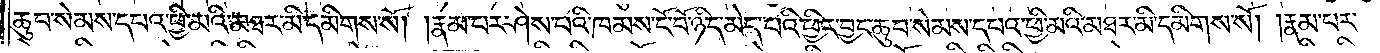ཆུབ་སེམས་དཔའི་ཕྱི་མའི་མཐར་མི་དམིགས་སོ། །རྣམ་པར་ཤེས་པའི་ཁམས་ངོ་བོ་ཉིད་མེད་པའི་ཕྱིར་བྱང་ཆུབ་སེམས་དཔའ་ཕྱི་མའི་མཐར་མི་དམིགས་སོ། །རྣམ་པར་
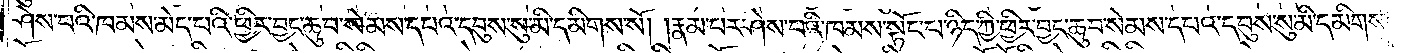ཤེས་པའི་ཁམས་མེད་པའི་ཕྱིར་བྱང་ཆུབ་སེམས་དཔའ་དབུས་སུ་མི་དམིགས་སོ། །རྣམ་པར་ཤེས་པའི་ཁམས་སྟོང་པ་ཉིད་ཀྱི་ཕྱིར་བྱང་ཆུབ་སེམས་དཔའ་དབུས་སུ་མི་དམིགས་
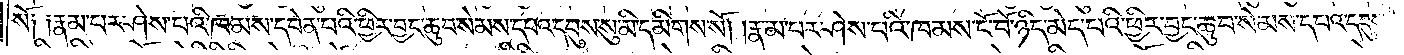སོ༑ ༑རྣམ་པར་ཤེས་པའི་ཁམས་དབེན་པའི་ཕྱིར་བྱང་ཆུབ་སེམས་དཔའ་དབུས་སུ་མི་དམིགས་སོ། །རྣམ་པར་ཤེས་པའི་ཁམས་ངོ་བོ་ཉིད་མེད་པའི་ཕྱིར་བྱང་ཆུབ་སེམས་དཔའ་དབུས་
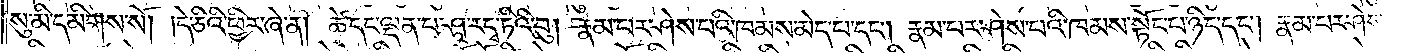སུ་མི་དམིགས་སོ། །དེ་ཅིའི་ཕྱིར་ཞེ་ན། ཚེ་དང་ལྡན་པ་ཤཱ་རདྭ་ཏིའི་བུ། རྣམ་པར་ཤེས་པའི་ཁམས་མེད་པ་དང༌། རྣམ་པར་ཤེས་པའི་ཁམས་སྟོང་པ་ཉིད་དང༌། རྣམ་པར་ཤེས་
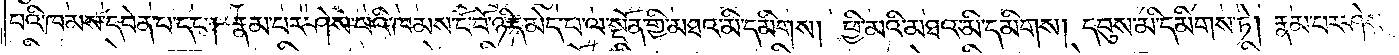པའི་ཁམས་དབེན་པ་དང༌། རྣམ་པར་ཤེས་པའི་ཁམས་ངོ་བོ་ཉིད་མེད་པ་ལ་སྔོན་གྱི་མཐའ་མི་དམིགས། ཕྱི་མའི་མཐའ་མི་དམིགས། དབུས་མི་དམིགས་ཏེ། རྣམ་པར་ཤེས་
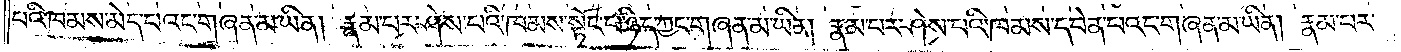པའི་ཁམས་མེད་པའང་གཞན་མ་ཡིན། རྣམ་པར་ཤེས་པའི་ཁམས་སྟོང་པ་ཉིད་ཀྱང་གཞན་མ་ཡིན། རྣམ་པར་ཤེས་པའི་ཁམས་དབེན་པའང་གཞན་མ་ཡིན། རྣམ་པར་
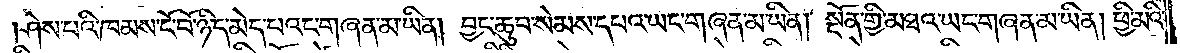ཤེས་པའི་ཁམས་ངོ་བོ་ཉིད་མེད་པའང་གཞན་མ་ཡིན། བྱང་ཆུབ་སེམས་དཔའ་ཡང་གཞན་མ་ཡིན། སྔོན་གྱི་མཐའ་ཡང་གཞན་མ་ཡིན། ཕྱི་མའི་
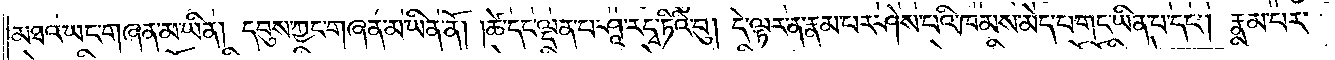མཐའ་ཡང་གཞན་མ་ཡིན། དབུས་ཀྱང་གཞན་མ་ཡིན་ནོ། །ཚེ་དང་ལྡན་པ་ཤཱ་རདྭ་ཏིའི་བུ། དེ་ལྟར་ན་རྣམ་པར་ཤེས་པའི་ཁམས་མེད་པ་གང་ཡིན་པ་དང༌། རྣམ་པར་
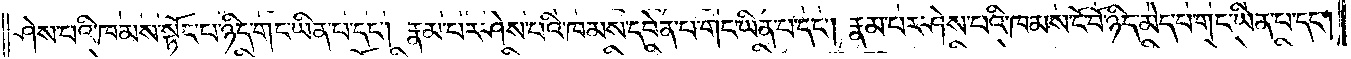ཤེས་པའི་ཁམས་སྟོང་པ་ཉིད་གང་ཡིན་པ་དང༌། རྣམ་པར་ཤེས་པའི་ཁམས་དཔེན་པ་གང་ཡིན་པ་དང༌། རྣམ་པར་ཤེས་པའི་ཁམས་ངོ་བོ་ཉིད་མེད་པ་གང་ཡིན་པ་དང༌།
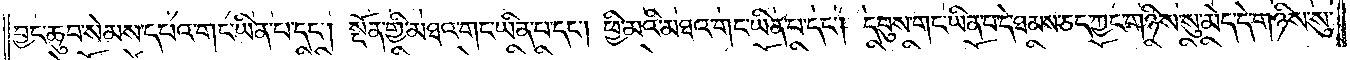བྱང་ཆུབ་སེམས་དཔའ་གང་ཡིན་པ་དང༌། སྔོན་གྱི་མཐའ་གང་ཡིན་པ་དང༌། ཕྱི་མའི་མཐའ་གང་ཡིན་པ་དང༌། དབུས་གང་ཡིན་པ་དེ་ཐམས་ཅད་ཀྱང་གཉིས་སུ་མེད་དེ་གཉིས་སུ་
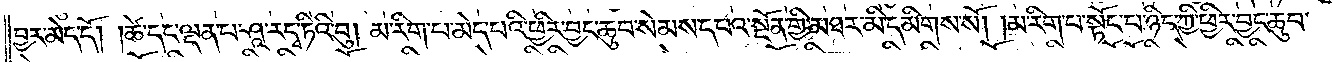བྱར་མེད་དོ། །ཚེ་དང་ལྡན་པ་ཤཱ་རདྭ་ཏིའི་བུ། མ་རིག་པ་མེད་པའི་ཕྱིར་བྱང་ཆུབ་སེམས་དཔའ་སྔོན་གྱི་མཐར་མི་དམིགས་སོ། །མ་རིག་པ་སྟོང་པ་ཉིད་ཀྱི་ཕྱིར་བྱང་ཆུབ་
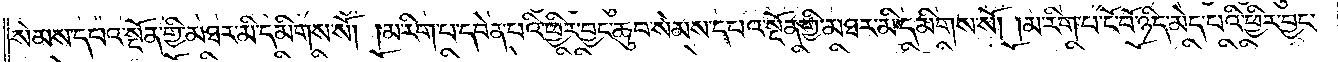སེམས་དཔའ་སྔོན་གྱི་མཐར་མི་དམིགས་སོ། །མ་རིག་པ་དབེན་པའི་ཕྱིར་བྱང་ཆུབ་སེམས་དཔའ་སྔོན་གྱི་མཐར་མི་དམིགས་སོ། །མ་རིག་པ་ངོ་བོ་ཉིད་མེད་པའི་ཕྱིར་བྱང་
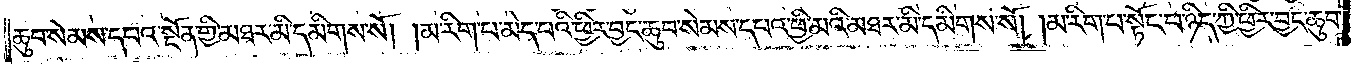ཆུབ་སེམས་དཔའ་སྔོན་གྱི་མཐར་མི་དམིགས་སོ། །མ་རིག་པ་མེད་པའི་ཕྱིར་བྱང་ཆུབ་སེམས་དཔའ་ཕྱི་མའི་མཐར་མི་དམིགས་སོ། །མ་རིག་པ་སྟོང་པ་ཉིད་ཀྱི་ཕྱིར་བྱང་ཆུབ་
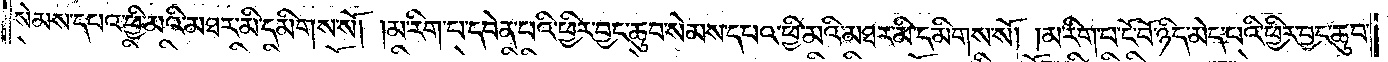སེམས་དཔའ་ཕྱི་མའི་མཐར་མི་དམིགས་སོ། །མ་རིག་པ་དབེན་པའི་ཕྱིར་བྱང་ཆུབ་སེམས་དཔའ་ཕྱི་མའི་མཐར་མི་དམིགས་སོ། །མ་རིག་པ་ངོ་བོ་ཉིད་མེད་པའི་ཕྱིར་བྱང་ཆུབ་
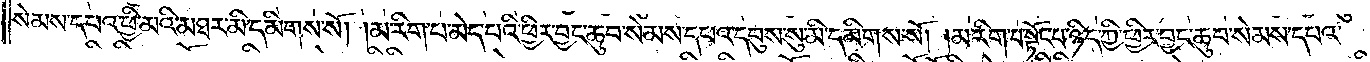སེམས་དཔའ་ཕྱི་མའི་མཐར་མི་དམིགས་སོ། །མ་རིག་པ་མེད་པའི་ཕྱིར་བྱང་ཆུབ་སེམས་དཔའ་དབུས་སུ་མི་དམིགས་སོ། །མ་རིག་པ་སྟོང་པ་ཉིད་ཀྱི་ཕྱིར་བྱང་ཆུབ་སེམས་དཔའ་
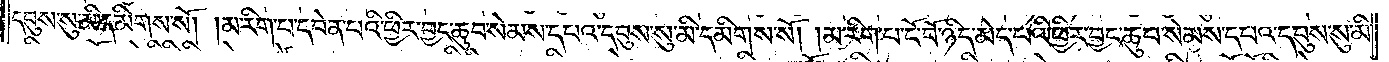དབུས་སུ་མི་དམིགས་སོ། །མ་རིག་པ་དབེན་པའི་ཕྱིར་བྱང་ཆུབ་སེམས་དཔའ་དབུས་སུ་མི་དམིགས་སོ། །མ་རིག་པ་ངོ་བོ་ཉིད་མེད་པའི་ཕྱིར་བྱང་ཆུབ་སེམས་དཔའ་དབུས་སུ་མི་
